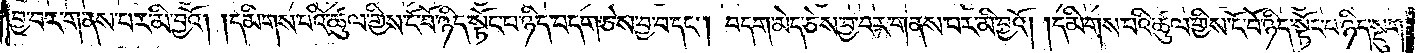བྱ་བར་གནས་པར་མི་བྱའོ། །དམིགས་པའི་ཚུལ་གྱིས་ངོ་བོ་ཉིད་སྟོང་པ་ཉིད་བདག་ཅེས་བྱ་བ་དང༌། བདག་མེད་ཅེས་བྱ་བར་གནས་པར་མི་བྱའོ། །དམིགས་པའི་ཚུལ་གྱིས་ངོ་བོ་ཉིད་སྟོང་པ་ཉིད་སྡུག་
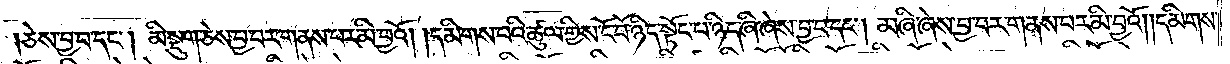ཅེས་བྱ་བ་དང༌། མི་སྡུག་ཅེས་བྱ་བར་གནས་པར་མི་བྱའོ། །དམིགས་པའི་ཚུལ་གྱིས་ངོ་བོ་ཉིད་སྟོང་པ་ཉིད་ཞི་ཞེས་བྱ་བ་དང༌། མ་ཞི་ཞེས་བྱ་བར་གནས་པར་མི་བྱའོ། །དམིགས་
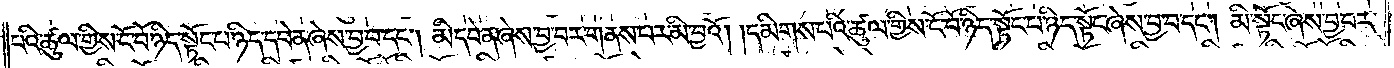པའི་ཚུལ་གྱིས་ངོ་བོ་ཉིད་སྟོང་པ་ཉིད་དབེན་ཞེས་བྱ་བ་དང༌། མི་དབེན་ཞེས་བྱ་བར་གནས་པར་མི་བྱའོ། །དམིགས་པའི་ཚུལ་གྱིས་ངོ་བོ་ཉིད་སྟོང་པ་ཉིད་སྟོང་ཞེས་བྱ་བ་དང༌། མི་སྟོང་ཞེས་བྱ་བར་
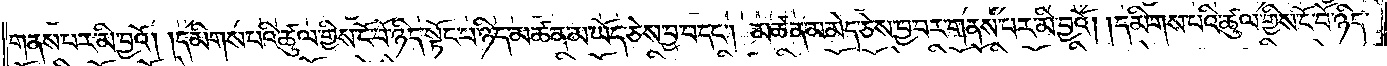གནས་པར་མི་བྱའོ། །དམིགས་པའི་ཚུལ་གྱིས་ངོ་བོ་ཉིད་སྟོང་པ་ཉིད་མཚན་མ་ཡོད་ཅེས་བྱ་བ་དང༌། མཚན་མ་མེད་ཅེས་བྱ་བར་གནས་པར་མི་བྱའོ། །དམིགས་པའི་ཚུལ་གྱིས་ངོ་བོ་ཉིད་
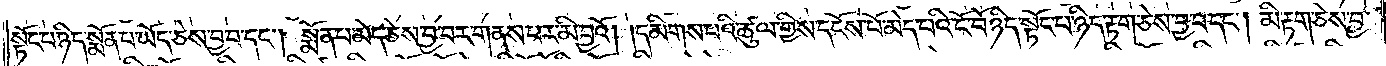སྟོང་པ་ཉིད་སྨོན་པ་ཡོད་ཅེས་བྱ་བ་དང༌། སྨོན་པ་མེད་ཅེས་བྱ་བར་གནས་པར་མི་བྱའོ། །དམིགས་པའི་ཚུལ་གྱིས་དངོས་པོ་མེད་པའི་ངོ་བོ་ཉིད་སྟོང་པ་ཉིད་རྟག་ཅེས་བྱ་བ་དང༌། མི་རྟག་ཅེས་བྱ་
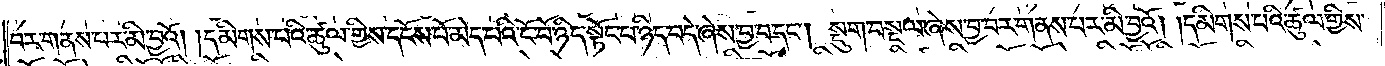བར་གནས་པར་མི་བྱའོ། །དམིགས་པའི་ཚུལ་གྱིས་དངོས་པོ་མེད་པའི་ངོ་བོ་ཉིད་སྟོང་པ་ཉིད་བདེ་ཞེས་བྱ་བ་དང༌། སྡུག་བསྔལ་ཞེས་བྱ་བར་གནས་པར་མི་བྱའོ། །དམིགས་པའི་ཚུལ་གྱིས་
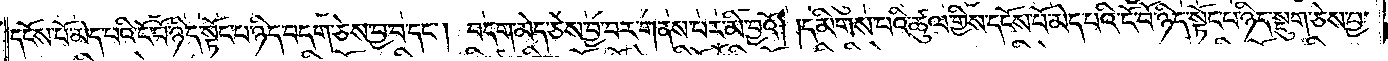དངོས་པོ་མེད་པའི་ངོ་བོ་ཉིད་སྟོང་པ་ཉིད་བདག་ཅེས་བྱ་བ་དང༌། བདག་མེད་ཅེས་བྱ་བར་གནས་པར་མི་བྱའོ། །དམིགས་པའི་ཚུལ་གྱིས་དངོས་པོ་མེད་པའི་ངོ་བོ་ཉིད་སྟོང་པ་ཉིད་སྡུག་ཅེས་བྱ་
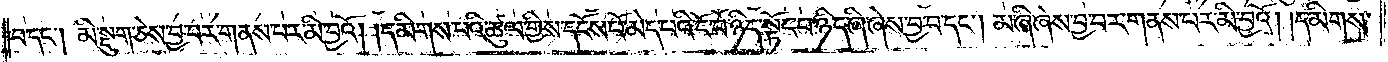བ་དང༌། མི་སྡུག་ཅེས་བྱ་བར་གནས་པར་མི་བྱའོ། །དམིགས་པའི་ཚུལ་གྱིས་དངོས་པོ་མེད་པའི་ངོ་བོ་ཉིད་སྟོང་པ་ཉིད་ཞི་ཞེས་བྱ་བ་དང༌། མ་ཞི་ཞེས་བྱ་བར་གནས་པར་མི་བྱའོ། །དམིགས་
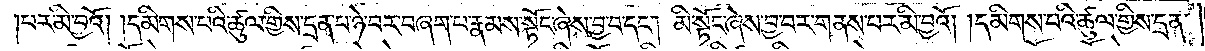པར་མི་བྱའོ། །དམིགས་པའི་ཚུལ་གྱིས་དྲན་པ་ཉེ་བར་བཞག་པ་རྣམས་སྟོང་ཞེས་བྱ་བ་དང༌། མི་སྟོང་ཞེས་བྱ་བར་གནས་པར་མི་བྱའོ། །དམིགས་པའི་ཚུལ་གྱིས་དྲན་
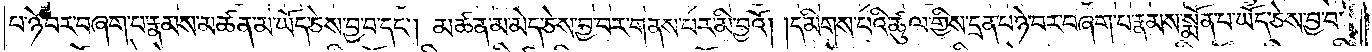པ་ཉེ་བར་བཞག་པ་རྣམས་མཚན་མ་ཡོད་ཅེས་བྱ་བ་དང༌། མཚན་མ་མེད་ཅེས་བྱ་བར་གནས་པར་མི་བྱའོ། །དམིགས་པའི་ཚུལ་གྱིས་དྲན་པ་ཉེ་བར་བཞག་པ་རྣམས་སྨོན་པ་ཡོད་ཅེས་བྱ་བ་
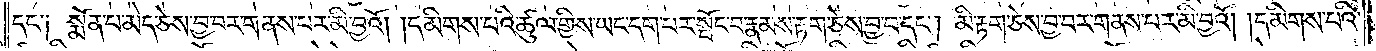དང༌༏ སྨོན་པ་མེད་ཅེས་བྱ་བར་གནས་པར་མི་བྱའོ། །དམིགས་པའི་ཚུལ་གྱིས་ཡང་དག་པར་སྤོང་བ་རྣམས་རྟག་ཅེས་བྱ་བ་དང༌། མི་རྟག་ཅེས་བྱ་བར་གནས་པར་མི་བྱའོ། །དམིགས་པའི་
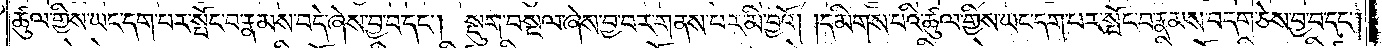ཚུལ་གྱིས་ཡང་དག་པར་སྤོང་བ་རྣམས་བདེ་ཞེས་བྱ་བ་དང༌། སྡུག་བསྔལ་ཞེས་བྱ་བར་གནས་པར་མི་བྱའོ། །དམིགས་པའི་ཚུལ་གྱིས་ཡང་དག་པར་སྤོང་བ་རྣམས་བདག་ཅེས་བྱ་བ་དང༌།
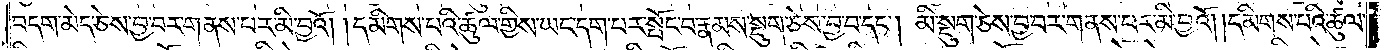བདག་མེད་ཅེས་བྱ་བར་གནས་པར་མི་བྱའོ། །དམིགས་པའི་ཚུལ་གྱིས་ཡང་དག་པར་སྤོང་བ་རྣམས་སྡུག་ཅེས་བྱ་བ་དང༌། མི་སྡུག་ཅེས་བྱ་བར་གནས་པར་མི་བྱའོ། །དམིགས་པའི་ཚུལ་
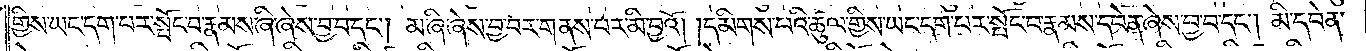གྱིས་ཡང་དག་པར་སྤོང་བ་རྣམས་ཞི་ཞེས་བྱ་བ་དང༌། མ་ཞི་ཞེས་བྱ་བར་གནས་པར་མི་བྱའོ། །དམིགས་པའི་ཚུལ་གྱིས་ཡང་དག་པར་སྤོང་བ་རྣམས་དབེན་ཞེས་བྱ་བ་དང༌། མི་དབེན་
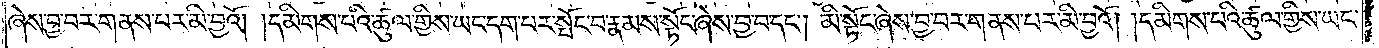ཞེས་བྱ་བར་གནས་པར་མི་བྱའོ། །དམིགས་པའི་ཚུལ་གྱིས་ཡང་དག་པར་སྤོང་བ་རྣམས་སྟོང་ཞེས་བྱ་བ་དང༌། མི་སྟོང་ཞེས་བྱ་བར་གནས་པར་མི་བྱའོ། །དམིགས་པའི་ཚུལ་གྱིས་ཡང་
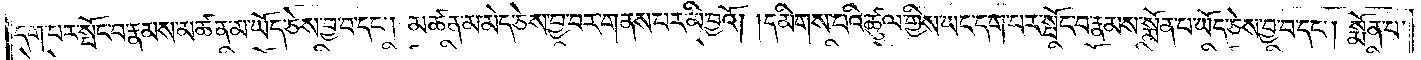དག་པར་སྤོང་བ་རྣམས་མཚན་མ་ཡོད་ཅེས་བྱ་བ་དང༌། མཚན་མ་མེད་ཅེས་བྱ་བར་གནས་པར་མི་བྱའོ། །དམིགས་པའི་ཚུལ་གྱིས་ཡང་དག་པར་སྤོང་བ་རྣམས་སྨོན་པ་ཡོད་ཅེས་བྱ་བ་དང༌། སྨོན་པ་
